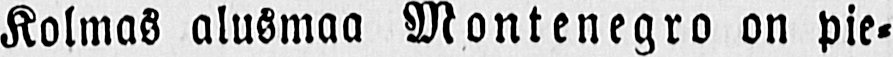Kolmas alusmaa Montenegro on pie-
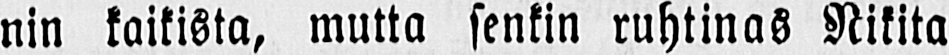nin kaikista, mutta senkin ruhtinas Nikita
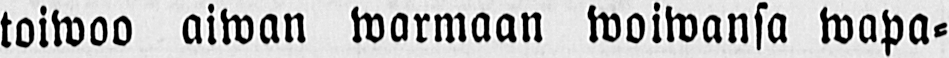toiwoo aiwan warmaan woiwansa wapa-
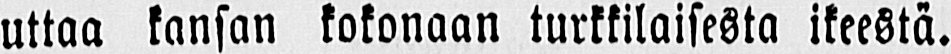uttaa kansan kokonaan turkkilaisesta ikeestä.
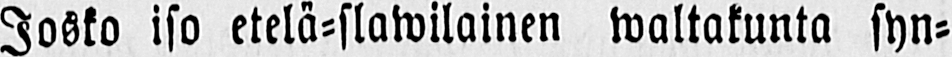Josko iso etelä-slawilainen waltakunta syn-
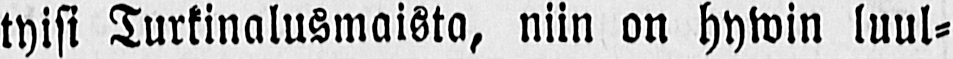tyisi Turkinalusmaista, niin on hywin luul-
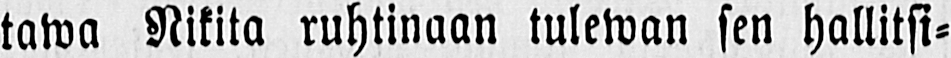tawa Nikita ruhtinaan tulewan sen hallitsi-
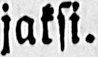jaksi.
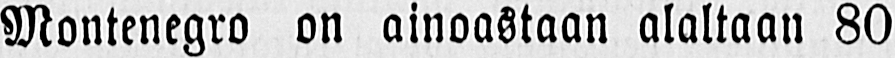Montenegro on ainoastaan alaltaan 80
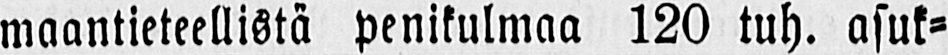maantieteellistä penikulmaa 120 tuh. asuk-
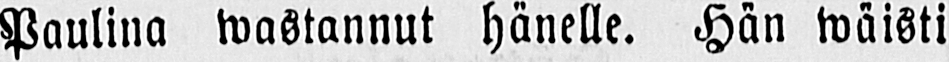Paulina wastannut hänelle. Hän wäisti
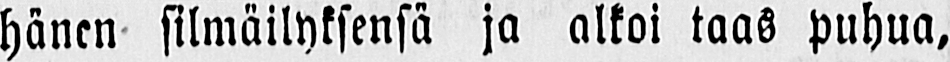hänen silmäilyksensä ja alkoi taas puhua,
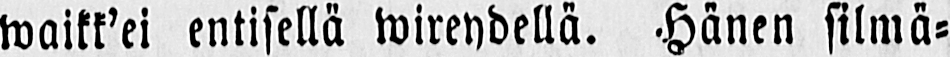waikk’ei entisellä wireydellä. Hänen silmä-
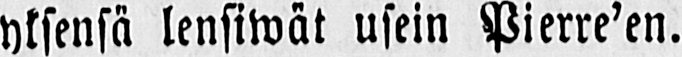yksensä lensiwät usein Pierre’en.
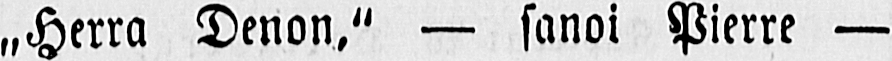„Herra Denon." — sanoi Pierre —
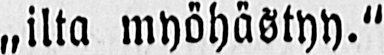„ilta myöhästyy."
